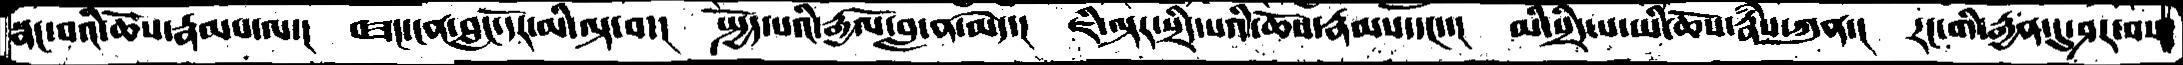སྣང་བའི་ཆོས་རྣམས་ལ་།  བཟང་ངན་བླང་དོར་མི་ལྟ་བ་།  སྤྱོད་པའི་རྒྱལོ་བླ་ན་མེད་།  ཇི་ལྟར་སྲིད་པའི་ཆོས་རྣམས་དང་་།  མི་སྲིད་པ་ཡི་ཆོས་རྣཾས་ཀུན་།  རང་གི་རྒྱན་དུ་ཤར་བས་
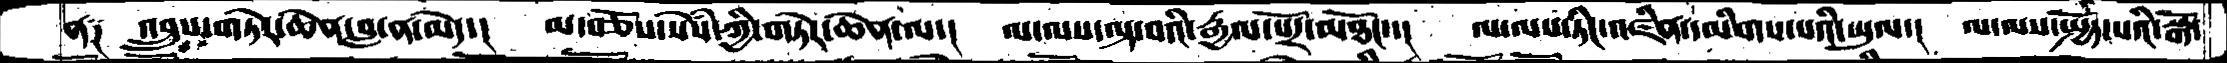ན༑  འབྲུས་གཏེར་ཆེན་བླ་ན་མེད་།  མ་བཅོས་སེཾས་ཀྱི་གཏེར་ཆེན་ལ་།  ལ་ལས་ལྟ་བའི་རྒྱལ་པོར་མཐོང་་།  ལ་ལས་ཏིང་འཛིན་དམིགས་པའི་ཡུལ་།  ལ་ལས་སྤྱོད་པའི་སྒོ་
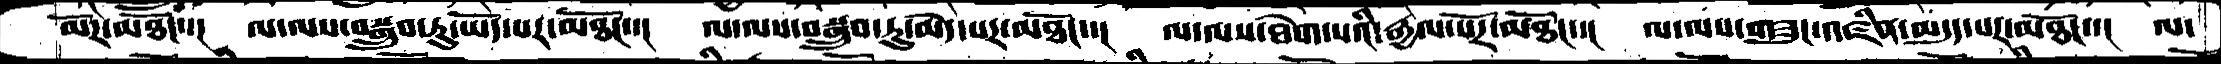མོར་མཐོང་་།  ལ་ལས་བསྒྲུབ་ཏུ་ཡོད་པར་མཐོང་་།  ལ་ལས་བསྒྲུབ་ཏུ་མེད་པར་མཐོང་་།  ལ་ལས་ཐེག་པའི་རྒྱལ་པོར་མཐོང་་།  ལ་ལས་གཟུང་འཛིན་མདུད་པར་མཐོང་་།  ལ་
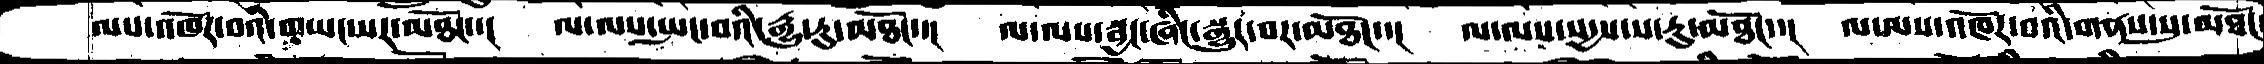ལས་འཁོར་བའི་གཡང་སར་མཐོང་་།  ལ་ལས་སྤང་བའི་རྒྱུ་རུ་མཐོང་་།  ལ་ལས་སྦྱང་ཞིང་སྒྱུར་བར་མཐོང་་།  ལ་ལས་སདྱས་ས་རུ་མཐོང་་།  ལ་ལས་འཁོར་བའི་གནས་སུ་མཐོང་
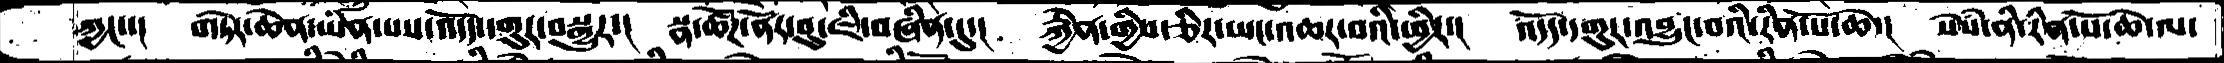ཀྱང་་།   གཏེར་ཆེན་ཡིན་པས་འདོད་དགུར་བསྒྱུར་།  སྣ་ཚོཌ་ནོར་བུ་ཇི་བཞིན་དུ་།  རྐྱེན་གྱིས་ཅིར་ཡང་འཆར་བའི་ཕྱིར་།  འདོད་དགུར་འབྱུང་བའི་རིན་པོ་ཆེ་།  སེཾས་ནི་རིན་པོ་ཆེ་ལ་
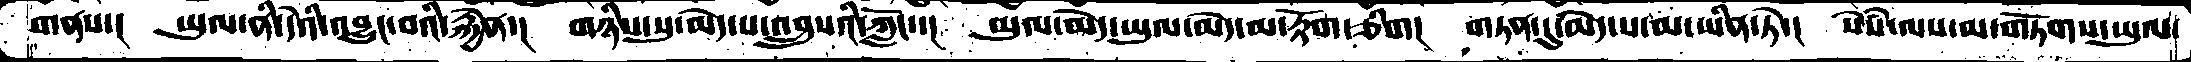གནས་།  ཡུལ་ནི་དེའི་འབྱུང་བའི་རྐྱེན་།  གཉིས་སུ་མེད་པ་འབྲུསའི་ཀློང་་།  ཡུལ་མེད་ཡུལ་མེད་མ་རྟོག་ཅིག།  གཏན་དུ་མེད་པ་མ་ཡིན་ཏེ་།  སེཾས་ལས་མ་གཏོགས་ཡུལ་
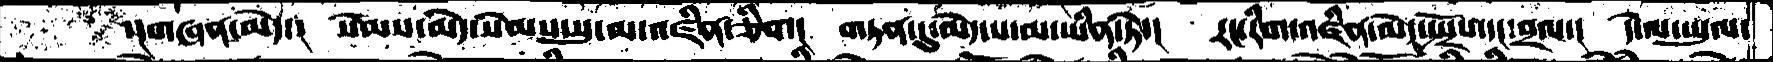་།གཞན་མེད་།  སེམས་མེད་སེམས་སུ་མ་འཛིན་ཅིག།   གཏན་དུ་མེད་པ་མ་ཡིན་ཏེ་།  རང་རིག་འཛིན་མེད་སྤྲོས་དང་བྲལ་།  དེ་ལ་ཡུལ་
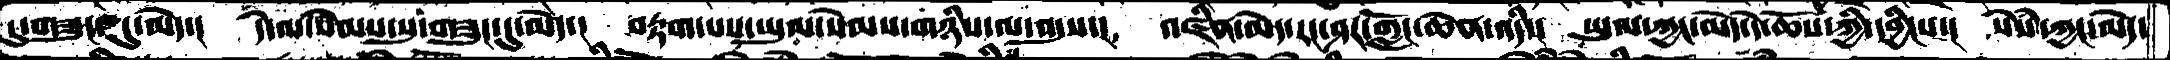དུ་གཟུང་དུ་མེད་།  དེ་ལ་སེམས་སུ་གཟུང་དུ་མེད་།  བརྟག་པས་ཡུལ་སེམས་གཉིས་ལ་འདུས་།  འཛིན་མེད་རང་ཤར་ཀློང་ཆེན་འདི་།  ཡུལ་ཀྱང་མེད་དེ་ཆོས་ཀྱི་དབྱིངས་།  སེཾས་ཀྱང་མེད་
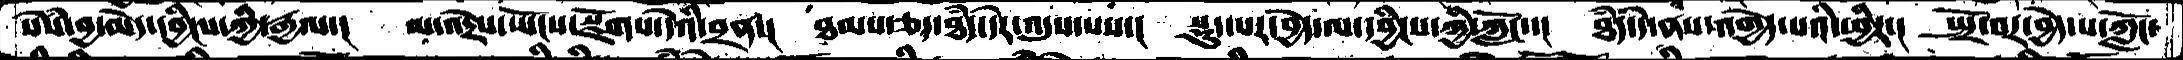སེཾས་བྱ་མེད་དབྱིངས་ཀྱི་རྒྱལ་། མ་འདྲེས་ཡོངས་སྫོགས་དེའི་བྲན་།  ཐམས་ཅད་ཐཾད་དེར་འདུས་པས་།  སྡུད་པར་བྱེད་ལ་དབྱིངས་ཀྱི་ཀློང་་།  ཐཾད་དེ་ནས་འགྱེད་པའི་ཕྱིར་།  སྤྲོ་བར་བྱེད་པ་ཀློང་
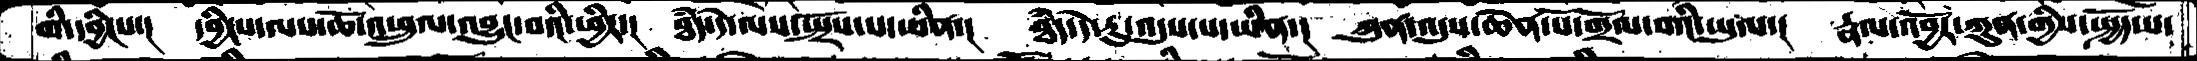གི་དབྱིངས་།  དབྱིངས་ལས་ཆོ་འཕྲུལ་འབྱུང་བའིཕྱིར་། ཐཾད་དེ་ལས་སྤྲོས་པ་ཡིན་།  ཐཾད་དེ་རུ་འདུས་པ་ཡིན་།  ཀུན་འདུས་ཆེན་པོ་གྲོལ་བའི་ཡུལ་།  རྣལ་འབྱོར་ཀུན་གྱིས་སྤྱོད་པ་
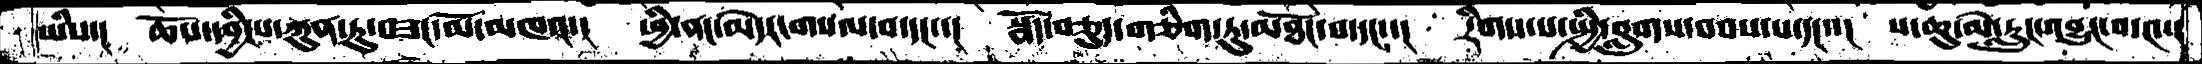ཡིས་།  ཆོས་དབྱིངས་ཀུན་ཏུ་བཟང་མོ་མཁའ་།  ཕྱི་ནང་མེདར་གསལ་བ་དང་་།  སྣོད་བཅུད་གཅིག་ཏུ་མཐོང་པ་དང་་།  རིགས་པ་སྤྱི་བླུགས་བབས་པ་དང་་།  ས་ཆུ་མེ་རླུང་འབྱུང་བ་༤་།
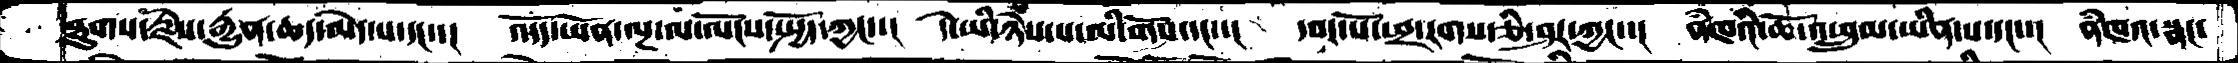ཐུགས་རྗེས་རྒྱུན་ཆད་མེད་པ་དང་་།  འདོད་ཡོན་ལྔ་ལ་ལོངས་སྤྱོད་ཀྱང་་།  དེ་ཡི་ཉེས་པ་མི་གོས་དང་་།  དབང་པོ་ཕྲ་རགས་ཅི་ཤར་ཀྱང་་།  ནཾཁའི་ཆོ་འཕྲུལ་་ཡིན་པ་དང་་།  ནཾཁའ་སྣང་
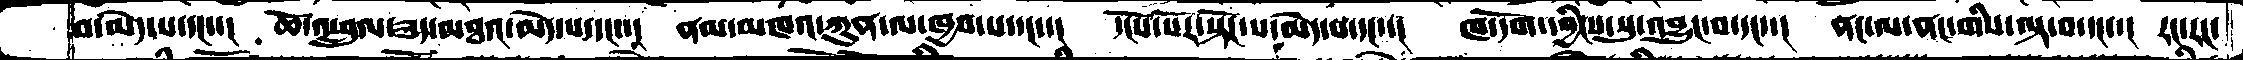བ་མེད་པ་དང་་།  ཆོ་འཕྲུལ་ཟད་མཐའ་མེད་པ་དང་་།  ནམ་མཁའ་ཀུན་ལ་ཁྱབ་པ་དང་་།  དངོས་པོར་སྟོང་པ་མེད་པ་དང་་།  ཁ་དོག་དབྱིངས་སུ་འབྱུང་བ་དང་་།  ནང་ལ་ནང་གིས་ལྟ་བ་དང་་།  རང་རང་
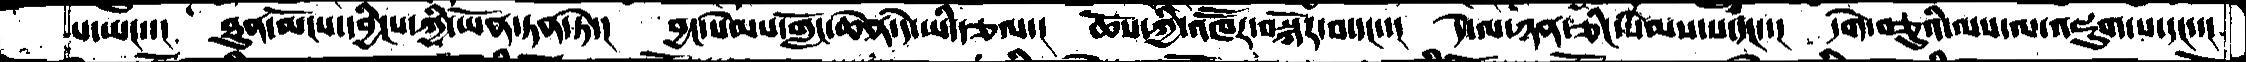པ་ཡང་་།  ཐུན་མོངས་དབྱིངས་ཀྱི་ཡོན་ཏན་ཏེ་།  བྱང་སེམས་གློང་ཆེན་དེ་ཡི་རྩལ་།  ཆོས་ཀྱི་འཁཽར་བསྐོར་བ་དང་་།  དེ་ལ་ཉན་ཅིང་སེམས་པ་དང་་།  དགེ་བཅུའི་ལས་ལ་འཇུག་པ་དང་་།
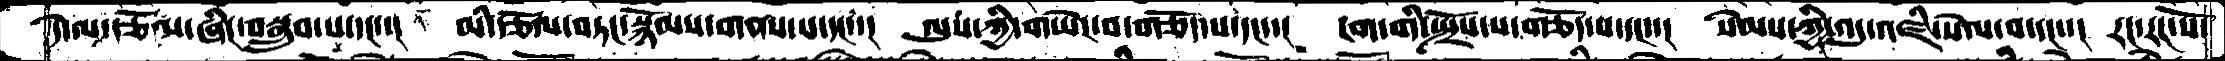དེ་ལ་རྩོལ་ཞིང་བསྒྲུབ་པ་དང་་།  མི་རྩོལ་བཏང་སྙོམས་གནས་པ་དང་་།  ལུས་ཀྱི་གཡེང་བ་གཅོད་པ་དང་་།  ངག་གི་སྤྲོས་པ་གཅོད་པ་དང་་།  སེམས་ཀྱི་འདུ་འཛི་སེལ་བ་དང་་།  རང་རང་སོ་
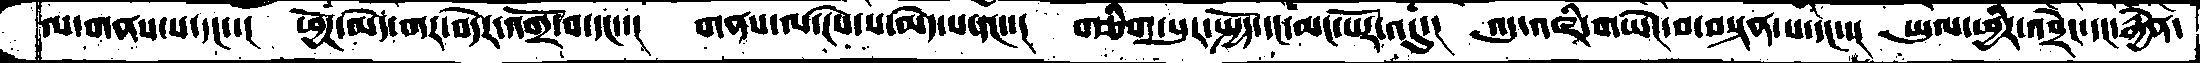ལ་གནས་པ་དང་་།  ཕྱོཌ་མེེད་གར་བདེར་འགྲོ་བ་དང་་།  གནས་ལ་ངེས་པ་མེད་པ་དང་་།  གཅིག་པུར་སྤྱོད་དང་མང་པོར་འདུ་།  འདུ་འཛི་གཡེང་བ་བསྟན་པ་དང་་།  ཡུལ་ཕྱིར་འབྲེང་དང་རྒྱེན་
